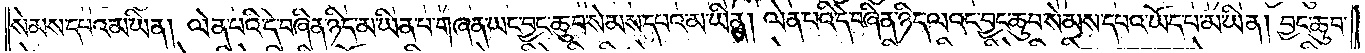སེམས་དཔའ་མ་ཡིན། ལེན་པའི་དེ་བཞིན་ཉིད་མ་ཡིན་པ་གཞན་ཡང་བྱང་ཆུབ་སེམས་དཔའ་མ་ཡིན། ལེན་པའི་དེ་བཞིན་ཉིད་ལའང་བྱང་ཆུབ་སེམས་དཔའ་ཡོད་པ་མ་ཡིན། བྱང་ཆུབ་
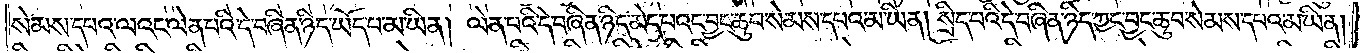སེམས་དཔའ་ལའང་ལེན་པའི་དེ་བཞིན་ཉིད་ཡོད་པ་མ་ཡིན། ལེན་པའི་དེ་བཞིན་ཉིད་མེད་པའང་བྱང་ཆུབ་སེམས་དཔའ་མ་ཡིན། སྲིད་པའི་དེ་བཞིན་ཉིད་ཀྱང་བྱང་ཆུབ་སེམས་དཔའ་མ་ཡིན།
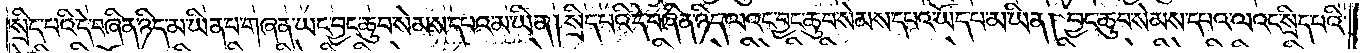སྲིད་པའི་དེ་བཞིན་ཉིད་མ་ཡིན་པ་གཞན་ཡང་བྱང་ཆུབ་སེམས་དཔའ་མ་ཡིན། སྲིད་པའི་དེ་བཞིན་ཉིད་ལའང་བྱང་ཆུབ་སེམས་དཔའ་ཡོད་པ་མ་ཡིན། བྱང་ཆུབ་སེམས་དཔའ་ལའང་སྲིད་པའི་
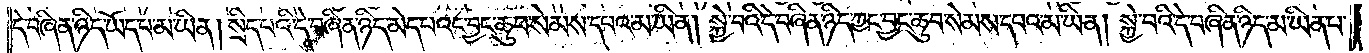དེ་བཞིན་ཉིད་ཡོད་པ་མ་ཡིན། སྲིད་པའི་དེ་བཞིན་ཉིད་མེད་པའང་བྱང་ཆུབ་སེམས་དཔའ་མ་ཡིན། སྐྱེ་བའི་དེ་བཞིན་ཉིད་ཀྱང་བྱང་ཆུབ་སེམས་དཔའ་མ་ཡིན། སྐྱེ་བའི་དེ་བཞིན་ཉིད་མ་ཡིན་པ་
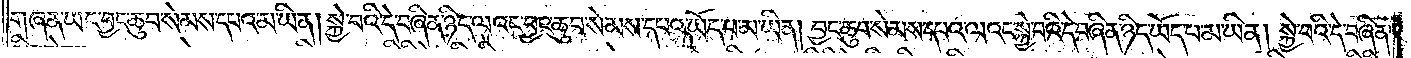གཞན་ཡང་བྱང་ཆུབ་སེམས་དཔའ་མ་ཡིན། སྐྱེ་བའི་དེ་བཞིན་ཉིད་ལའང་བྱང་ཆུབ་སེམས་དཔའ་ཡོད་པ་མ་ཡིན། བྱང་ཆུབ་སེམས་དཔའ་ལའང་སྐྱེ་བའི་དེ་བཞིན་ཉིད་ཡོད་པ་མ་ཡིན། སྐྱེ་བའི་དེ་བཞིན་
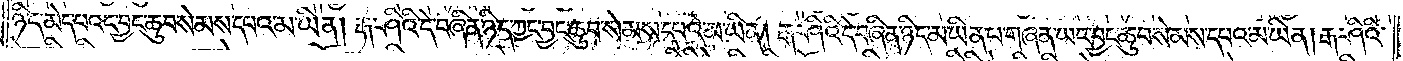ཉིད་མེད་པའང་བྱང་ཆུབ་སེམས་དཔའ་མ་ཡིན། རྒ་ཤིའི་དེ་བཞིན་ཉིད་ཀྱང་བྱང་ཆུབ་སེམས་དཔའ་མ་ཡིན། རྒ་ཤིའི་དེ་བཞིན་ཉིད་མ་ཡིན་པ་གཞན་ཡང་བྱང་ཆུབ་སེམས་དཔའ་མ་ཡིན། རྒ་ཤིའི་
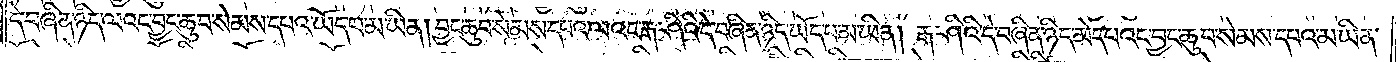དེ་བཞིན་ཉིད་ལའང་བྱང་ཆུབ་སེམས་དཔའ་ཡོད་པ་མ་ཡིན། བྱང་ཆུབ་སེམས་དཔའ་ལའང་རྒ་ཤིའི་དེ་བཞིན་ཉིད་ཡོད་པ་མ་ཡིན། རྒ་ཤིའི་དེ་བཞིན་ཉིད་མེད་པའང་བྱང་ཆུབ་སེམས་དཔའ་མ་ཡིན་
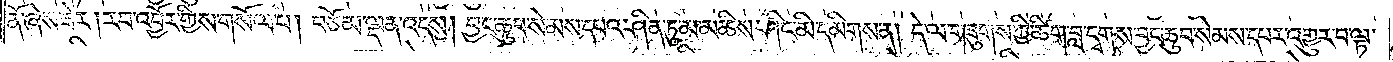ནོ་ཞེས་ཟེར། རབ་འབྱོར་གྱིས་གསོལ་པ། བཅོམ་ལྡན་འདས། བྱང་ཆུབ་སེམས་དཔའ་ཤིན་ཏུ་མ་མཆིས་ཤིང་མི་དམིགས་ན། དེ་ལ་གཟུགས་ཀྱི་ཚིག་བླ་དྭགས་བྱང་ཆུབ་སེམས་དཔར་འགྱུར་བ་ལྟ་
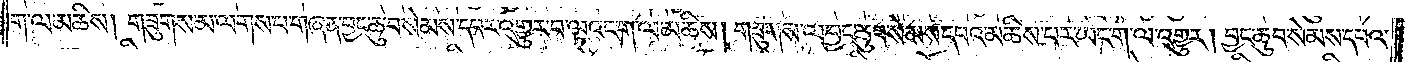ག་ལ་མཆིས། གཟུགས་མ་ལགས་པ་གཞན་བྱང་ཆུབ་སེམས་དཔར་འགྱུར་བ་ལྟའང་ག་ལ་མཆིས། གཟུགས་ལ་བྱང་ཆུབ་སེམས་དཔའ་མཆིས་པར་ཡང་ག་ལ་འགྱུར། བྱང་ཆུབ་སེམས་དཔའ་
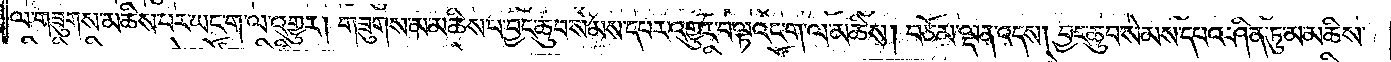ལ་གཟུགས་མཆིས་པར་ཡང་ག་ལ་འགྱུར། གཟུགས་མ་མཆིས་པ་བྱང་ཆུབ་སེམས་དཔར་འགྱུར་བ་ལྟའང་ག་ལ་མཆིས། བཅོམ་ལྡན་འདས། བྱང་ཆུབ་སེམས་དཔའ་ཤིན་ཏུ་མ་མཆིས་
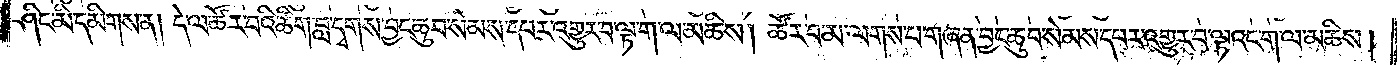ཤིང་མི་དམིགས་ན། དེ་ལ་ཚོར་བའི་ཚིག་བླ་དྭགས་བྱང་ཆུབ་སེམས་དཔར་འགྱུར་བ་ལྟ་ག་ལ་མཆིས། ཚོར་བ་མ་ལགས་པ་གཞན་བྱང་ཆུབ་སེམས་དཔར་འགྱུར་བ་ལྟའང་ག་ལ་མཆིས་།
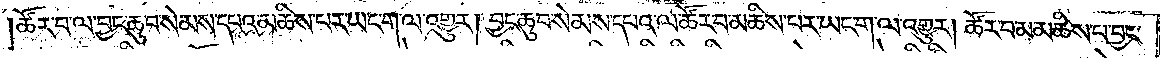ཚོར་བ་ལ་བྱང་ཆུབ་སེམས་དཔའ་མཆིས་པར་ཡང་ག་ལ་འགྱུར། བྱང་ཆུབ་སེམས་དཔའ་ལ་ཚོར་བ་མཆིས་པར་ཡང་ག་ལ་འགྱུར། ཚོར་བ་མ་མཆིས་པ་བྱང་
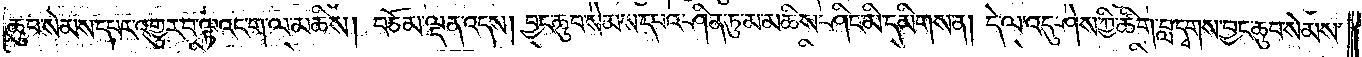ཆུབ་སེམས་དཔར་འགྱུར་བ་ལྟའང་ག་ལ་མཆིས། བཅོམ་ལྡན་འདས། བྱང་ཆུབ་སེམས་དཔའ་ཤིན་ཏུ་མ་མཆིས་ཤིང་མི་དམིགས་ན། དེ་ལ་འདུ་ཤེས་ཀྱི་ཚིག་བླ་དྭགས་བྱང་ཆུབ་སེམས་
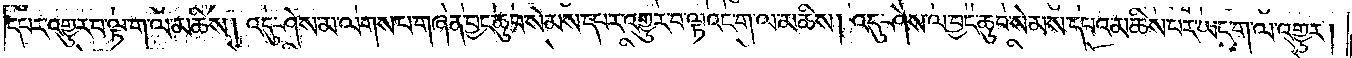དཔར་འགྱུར་བ་ལྟ་ག་ལ་མཆིས། འདུ་ཤེས་མ་ལགས་པ་གཞན་བྱང་ཆུབ་སེམས་དཔར་འགྱུར་བ་ལྟའང་ག་ལ་མཆིས། འདུ་ཤེས་ལ་བྱང་ཆུབ་སེམས་དཔའ་མཆིས་པར་ཡང་ག་ལ་འགྱུར།
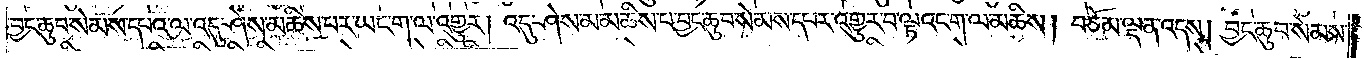བྱང་ཆུབ་སེམས་དཔའ་ལ་འདུ་ཤེས་མཆིས་པར་ཡང་ག་ལ་འགྱུར། འདུ་ཤེས་མ་མཆིས་པ་བྱང་ཆུབ་སེམས་དཔར་འགྱུར་བ་ལྟའང་ག་ལ་མཆིས། བཅོམ་ལྡན་འདས། བྱང་ཆུབ་སེམས་
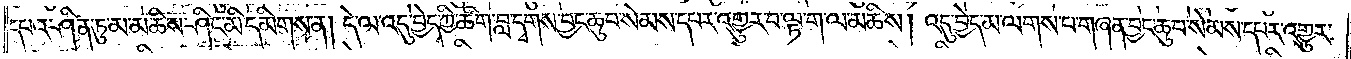དཔའ་ཤིན་ཏུ་མ་མཆིས་ཤིང་མི་དམིགས་ན། དེ་ལ་འདུ་བྱེད་ཀྱི་ཚིག་བླ་དྭགས་བྱང་ཆུབ་སེམས་དཔར་འགྱུར་བ་ལྟ་ག་ལ་མཆིས། འདུ་བྱེད་མ་ལགས་པ་གཞན་བྱང་ཆུབ་སེམས་དཔར་འགྱུར་
